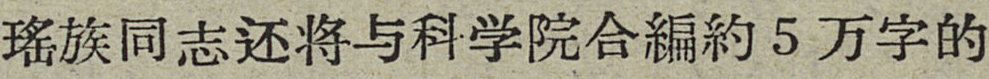瑤族同志还将与科学院合編約5万字的
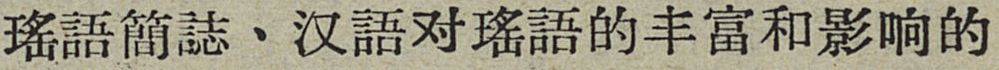瑤語簡誌、汉語对瑤語的丰富和影响的
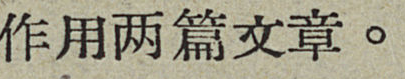作用两篇文章。
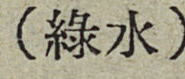（綠水）
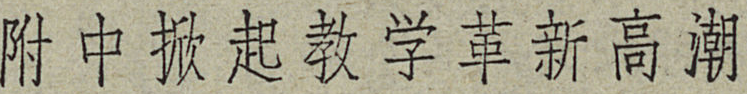附中掀起教学革新高潮
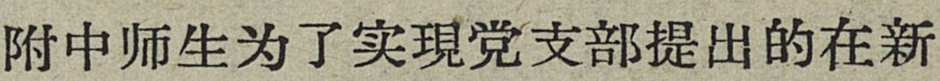附中师生为了实現党支部提出的在新
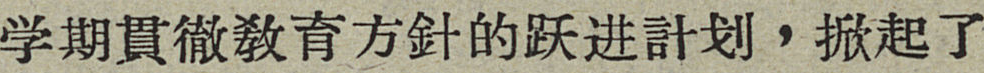学期貫徹敎育方針的跃进計划，掀起了
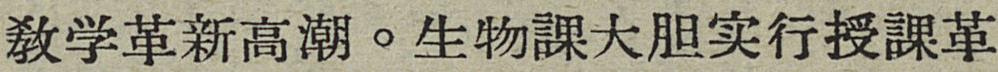敎学革新高潮。生物課大胆实行授課革
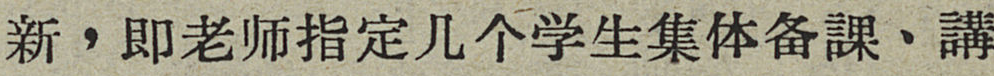新，即老师指定几个学生集体备課、講
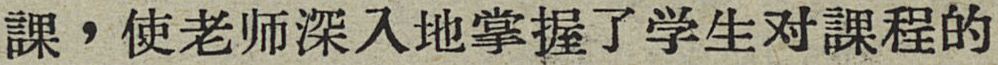課，使老师深入地掌握了学生对課程的
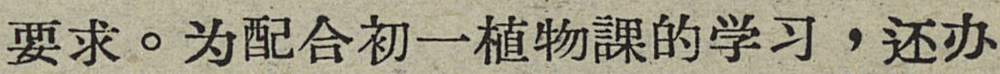要求。为配合初一植物課的学习，还办
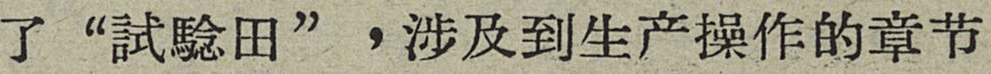了“試騐田”，涉及到生产操作的章节
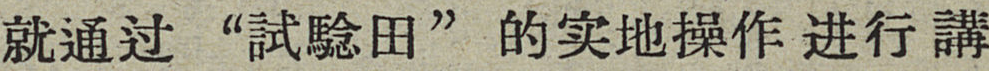就通过“試騐田”的实地操作进行講
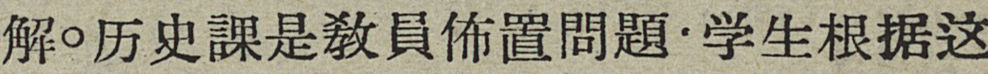解。历史課是敎員佈置問題，学生根据这
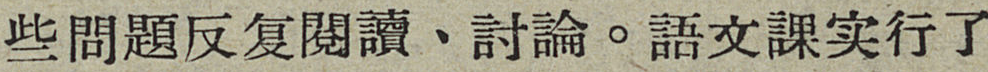些問題反复閱讀、討論。語文課实行了
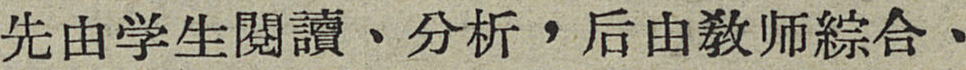先由学生閱讀、分析，后由敎师綜合、
